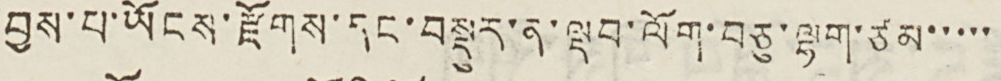བྱས་པ་ཡོངས་རྫོགས་དང་བསྡུར་ན་ལྡབ་ལོག་བཅུ་ལྷག་ཙམ་་་་་
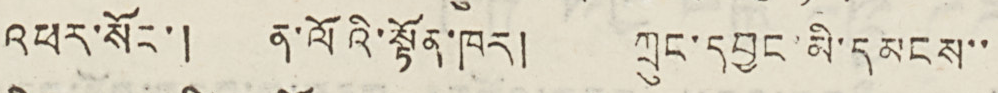འཕར་སོང་། ན་ལོའི་སྟོན་ཁར། ཀྲུང་དབྱང་མི་དམངས་་
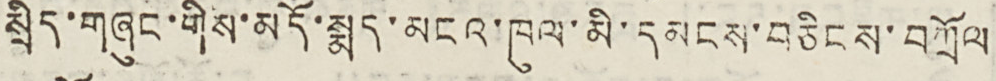སྲིད་གཞུང་གིས་མདོ་སྨད་མངའ་ཁུལ་མི་དམངས་བཅིངས་བཀྲོལ
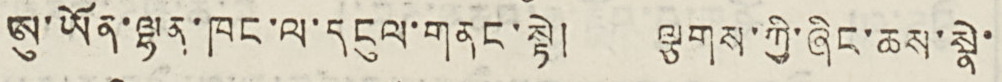ཨུ་ཡོན་ལྷན་ཁང་ལ་དངུལ་གནང་སྟེ། ལྕགས་ཀྱི་ཞིང་ཆས་སྣེ་
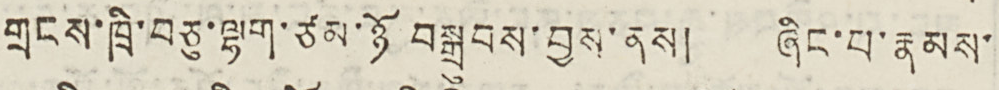གྲངས་ཁྲི་བཅུ་ལྷག་ཙམ་ཉོ བསྐྲུབས་བྱས་ནས། ཞིང་པ་རྣམས་
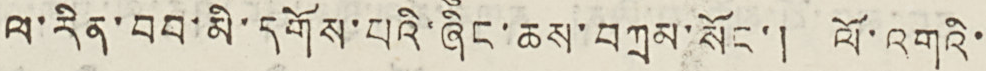ལ་རིན་བབ་མི་དགོས་པའི་ཞིང་ཆས་བཀྲམ་སོང་། ལོ་འགའི་
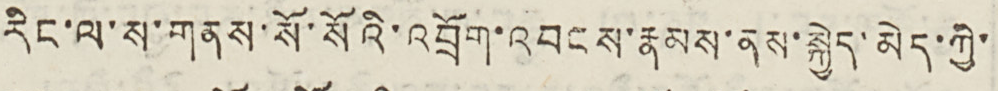རིང་ལ་ས་གནས་སོ་སོའི་འབྲོག་འབངས་རྣམས་ནས་སྐྱེད་མེད་ཀྱི་
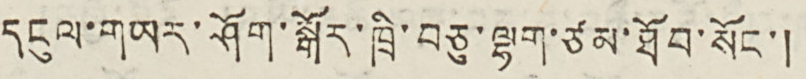དངུལ་གཡར་ཤོག་སྒོར་ཁྲི་བཅུ་ལྷག་ཙམ་ཐོབ་སོང་།
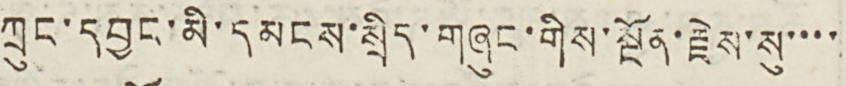ཀྲུང་དབྱང་མི་དམངས་སྲིད་གཞུང་གིས་སྔོན་རྗེས་སུ་་་་
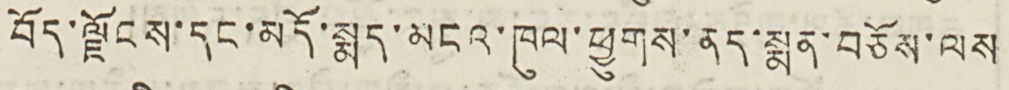བོད་ལྗོངས་དང་མདོ་སྨད་མངའ་ཁུལ་ཕྱུགས་ནད་སྨན་བཅོས་ལས
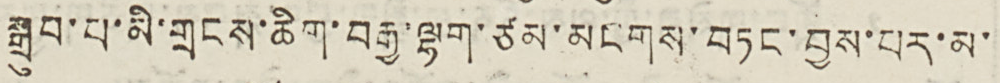སྒྲུབ་པ་མི་གྲངས་ཆིག་བརྒྱ་ལྷག་ཙམ་མངགས་བཏང་བྱས་པར་མ་
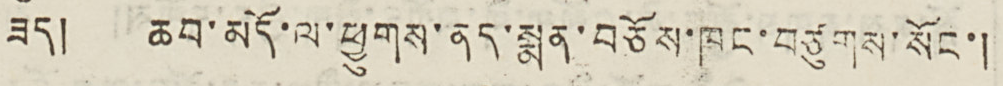ཟད། ཆབ་མདོ་ལ་ཕྱུགས་ནད་སྨན་བཅོས་ཁང་བཙུགས་སོང་།
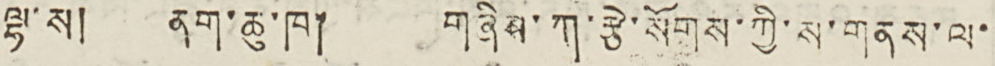ལྷ་ས། ནག་ཆུ་ཁ། གཞིས་ཀ་རྩེ་སོགས་ཀྱི་ས་གནས་ལ་
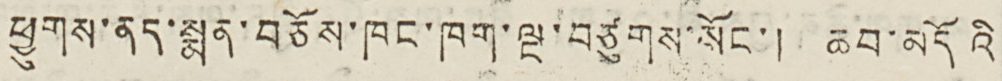ཕྱུགས་ནད་སྨན་བཅོས་ཁང་ཁག་ལྔ་བཙུགས་སོང་། ཆབ་མདོའི
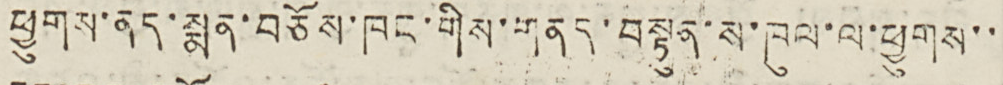ཕྱུགས་ནད་སྨན་བཅོས་ཁང་གིས་གནད་བསྟུན་ས་ཁུལ་ལ་ཕྱུགས་་
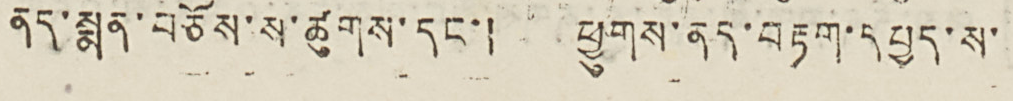ནད་སྨན་བཅོས་ས་ཚུགས་དང་། ཕྱུགས་ནད་བརྟག་དཔྱད་ས་
